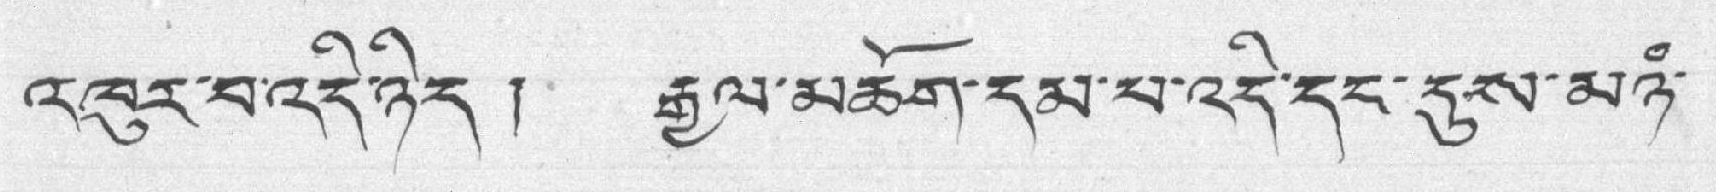འཁུར་བ་འདི་ཉིད ། རྒྱལ་མཆོག་དམ་པ་འདི་དང་དུས་མཉཾ་
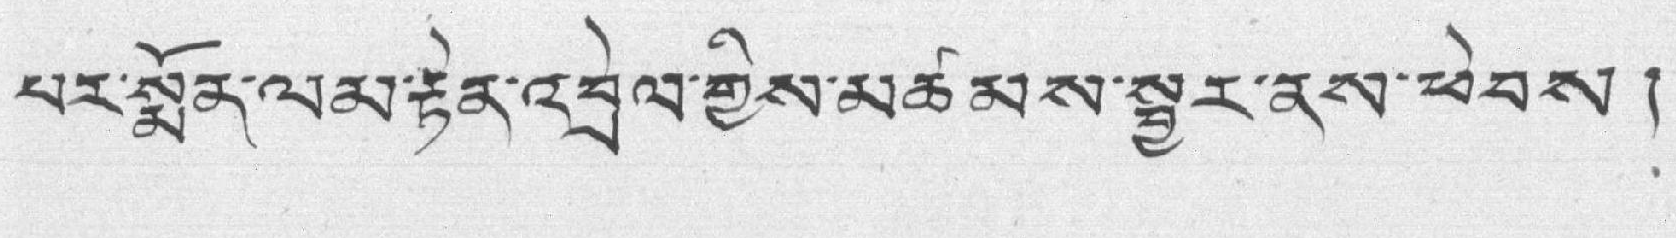པར་སྨོན་ལམ་རྟེན་འབྲེལ་གྱིས་མཚམས་སྦྱར་ནས་ཕེབས།
